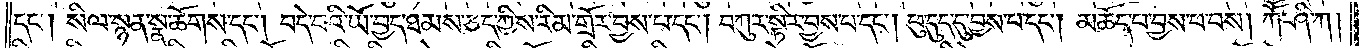དང༌། སིལ་སྙན་སྣ་ཚོགས་དང༌། བདེ་བའི་ཡོ་བྱད་ཐམས་ཅད་ཀྱིས་རིམ་གྲོར་བྱས་པ་དང༌། བཀུར་སྟིར་བྱས་པ་དང༌། ཕུ་དུད་དུ་བྱས་པ་དང༌། མཆོད་པ་བྱས་པ་བས། ཀཽ་ཤི་ཀ།
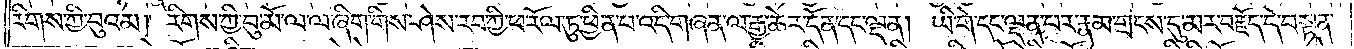རིགས་ཀྱི་བུའམ། རིགས་ཀྱི་བུ་མོ་ལ་ལ་ཞིག་གིས་ཤེས་རབ་ཀྱི་ཕ་རོལ་ཏུ་ཕྱིན་པ་འདི་གཞན་ལ་རྒྱ་ཆེར་དོན་དང་ལྡན། ཡི་གེ་དང་ལྡན་པར་རྣམ་གྲངས་དུ་མར་བརྗོད་དེ་བསྟན་
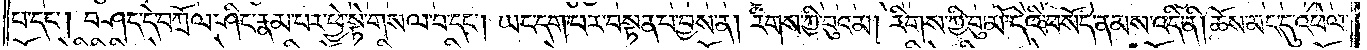པ་དང༌། བཤད་དེ་བཀྲོལ་ཤིང་རྣམ་པར་ཕྱེ་སྟེ་གསལ་བ་དང༌། ཡང་དག་པར་བསྟན་པ་བྱས་ན། རིགས་ཀྱི་བུའམ། རིགས་ཀྱི་བུ་མོ་དེའི་བསོད་ནམས་འདི་ནི། ཆོས་མང་དུ་འཕེལ་
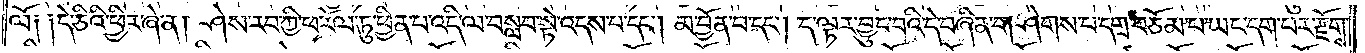ལོ༑ ༑དེ་ཅིའི་ཕྱིར་ཞེ་ན། ཤེས་རབ་ཀྱི་ཕ་རོལ་ཏུ་ཕྱིན་པ་འདི་ལ་བསླབ་སྟེ་འདས་པ་དང༌། མ་བྱོན་པ་དང༌། ད་ལྟར་བྱུང་བའི་དེ་བཞིན་གཤེགས་པ་དགྲ་བཅོམ་པ་ཡང་དག་པར་རྫོགས་
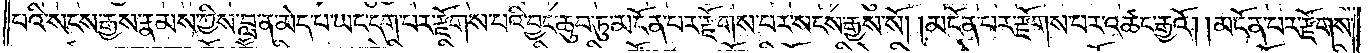པའི་སངས་རྒྱས་རྣམས་ཀྱིས་བླ་ན་མེད་པ་ཡང་དག་པར་རྫོགས་པའི་བྱང་ཆུབ་ཏུ་མངོན་པར་རྫོགས་པར་སངས་རྒྱས་སོ། །མངོན་པར་རྫོགས་པར་འཚང་རྒྱའོ། །མངོན་པར་རྫོགས་
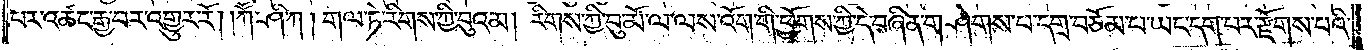པར་འཚང་རྒྱ་བར་འགྱུར་རོ། །ཀཽ་ཤི་ཀ། གལ་ཏེ་རིགས་ཀྱི་བུའམ། རིགས་ཀྱི་བུ་མོ་ལ་ལས་འོག་གི་ཕྱོགས་ཀྱི་དེ་བཞིན་གཤེགས་པ་དགྲ་བཅོམ་པ་ཡང་དག་པར་རྫོགས་པའི་
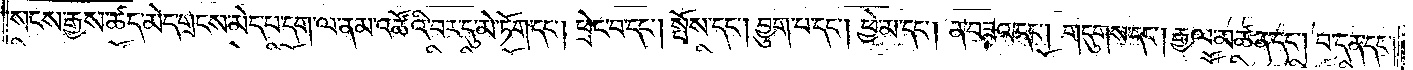སངས་རྒྱས་ཚད་མེད་གྲངས་མེད་པ་དག་ལ་ནམ་འཚོའི་བར་དུ་མེ་ཏོག་དང༌། ཕྲེང་བ་དང༌། སྤོས་དང༌། བྱུག་པ་དང༌། ཕྱེ་མ་དང༌། ན་བཟའ་དང༌། གདུགས་དང༌། རྒྱལ་མཚན་དང༌། བ་དན་དང༌།
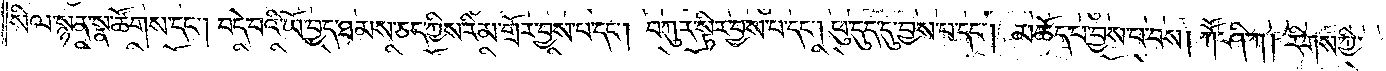སིལ་སྙན་སྣ་ཚོགས་དང༌། བདེ་བའི་ཡོ་བྱད་ཐམས་ཅད་ཀྱིས་རིམ་གྲོར་བྱས་པ་དང༌། བཀུར་སྟིར་བྱས་པ་དང༌། ཕུ་དུད་དུ་བྱས་པ་དང༌། མཆོད་པ་བྱས་པ་བས། ཀཽ་ཤི་ཀ། རིགས་ཀྱི་
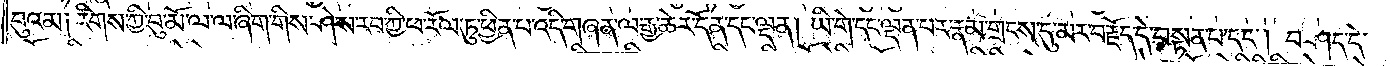བུའམ༑ རིགས་ཀྱི་བུ་མོ་ལ་ལ་ཞིག་གིས་ཤེས་རབ་ཀྱི་ཕ་རོལ་ཏུ་ཕྱིན་པ་འདི་གཞན་ལ་རྒྱ་ཆེར་དོན་དང་ལྡན། ཡི་གེ་དང་ལྡན་པར་རྣམ་གྲངས་དུ་མར་བརྗོད་དེ་བསྟན་པ་དང༌། བཤད་དེ་
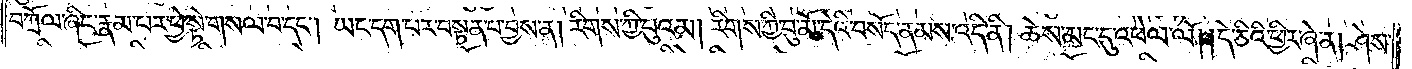བཀྲོལ་ཞིང་རྣམ་པར་ཕྱེ་སྟེ་གསལ་བ་དང༌། ཡང་དག་པར་བསྟན་པ་བྱས་ན། རིགས་ཀྱི་བུའམ། རིགས་ཀྱི་བུ་མོ་དེའི་བསོད་ནམས་འདི་ནི། ཆེས་མང་དུ་འཕེལ་ལོ། །དེ་ཅིའི་ཕྱིར་ཞེ་ན། ཤེས་
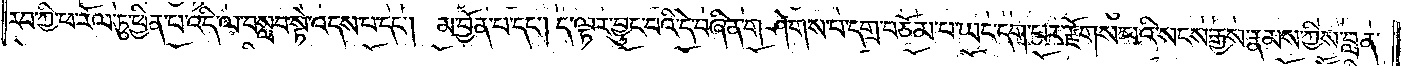རབ་ཀྱི་ཕ་རོལ་ཏུ་ཕྱིན་པ་འདི་ལ་བསླབ་སྟེ་འདས་པ་དང༌། མ་བྱོན་པ་དང༌། ད་ལྟར་བྱུང་བའི་དེ་བཞིན་གཤེགས་པ་དགྲ་བཅོམ་པ་ཡང་དག་པར་རྫོགས་པའི་སངས་རྒྱས་རྣམས་ཀྱིས་བླ་ན་
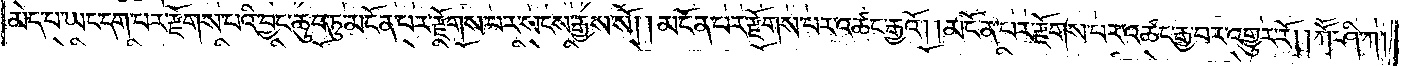མེད་པ་ཡང་དག་པར་རྫོགས་པའི་བྱང་ཆུབ་ཏུ་མངོན་པར་རྫོགས་པར་སངས་རྒྱས་སོ། །མངོན་པར་རྫོགས་པར་འཚང་རྒྱའོ། །མངོན་པར་རྫོགས་པར་འཚང་རྒྱ་བར་འགྱུར་རོ། །ཀཽ་ཤི་ཀ།
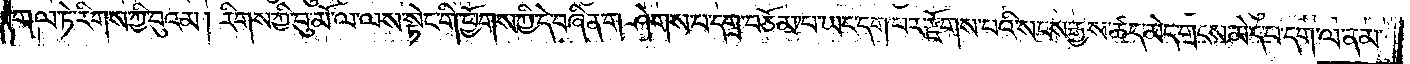གལ་ཏེ་རིགས་ཀྱི་བུའམ། རིགས་ཀྱི་བུ་མོ་ལ་ལས་སྟེང་གི་ཕྱོགས་ཀྱི་དེ་བཞིན་གཤེགས་པ་དགྲ་བཅོམ་པ་ཡང་དག་པར་རྫོགས་པའི་སངས་རྒྱས་ཚད་མེད་གྲངས་མེད་པ་དག་ལ་ནམ་
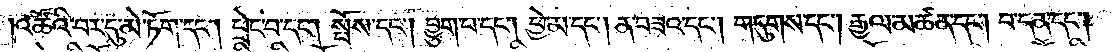འཚོའི་བར་དུ་མེ་ཏོག་དང༌། ཕྲེང་བ་དང༌། སྤོས་དང༌། བྱུག་པ་དང༌། ཕྱེ་མ་དང༌། ན་བཟའ་དང༌། གདུགས་དང༌། རྒྱལ་མཚན་དང༌། བ་དན་དང༌།
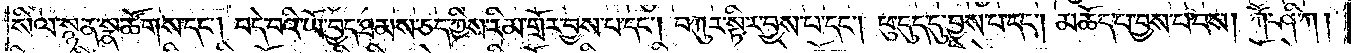སིལ་སྙན་སྣ་ཚོགས་དང༌། བདེ་བའི་ཡོ་བྱད་ཐམས་ཅད་ཀྱིས་རིམ་གྲོར་བྱས་པ་དང༌། བཀུར་སྟིར་བྱས་པ་དང༌། ཕུ་དུད་དུ་བྱས་པ་དང༌། མཆོད་པ་བྱས་པ་བས། ཀཽ་ཤི་ཀ།
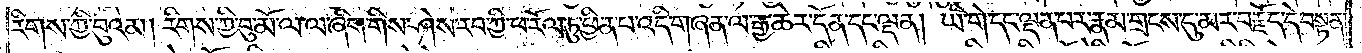རིགས་ཀྱི་བུའམ། རིགས་ཀྱི་བུ་མོ་ལ་ལ་ཞིག་གིས་ཤེས་རབ་ཀྱི་ཕ་རོལ་ཏུ་ཕྱིན་པ་འདི་གཞན་ལ་རྒྱ་ཆེར་དོན་དང་ལྡན། ཡི་གེ་དང་ལྡན་པར་རྣམ་གྲངས་དུ་མར་བརྗོད་དེ་བསྟན་
